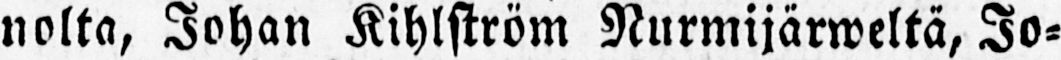nolta, Johan Kihlström Nurmijärweltä, Jo-
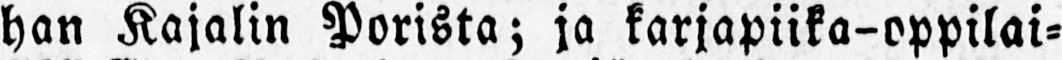han Kajalin Porista; ja karjapiika-oppilai-
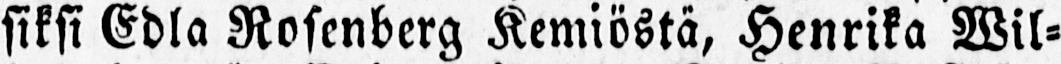siksi Edla Rosenberg Kemiöstä, Henrika Wil-
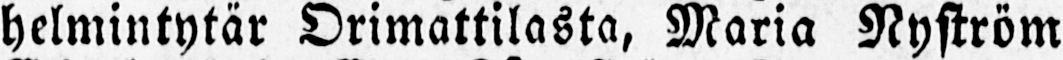helmintytär Orimattilasta, Maria Nyström
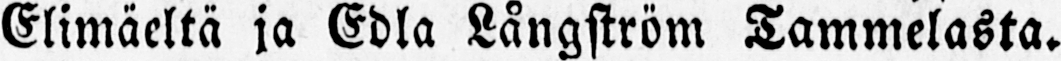Elimäeltä ja Edla Langström Tammelasta.
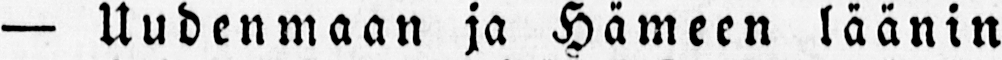— Uudenmaan ja Hämeen läänin
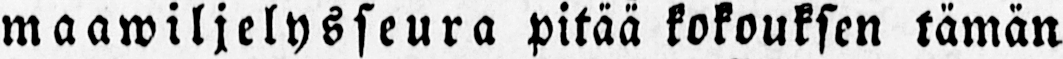maawiljelysseura pitää kokouksen tämän
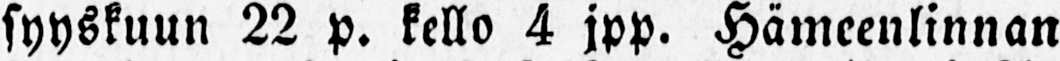syyskuun 22 p. kello 4 jpp. Hämeenlinnan
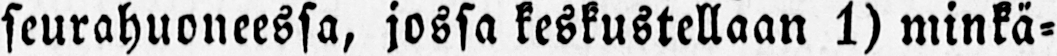seurahuoneessa, jossa keskustellaan 1) minkä-
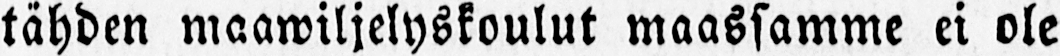tähden maawiljelyskoulut maassamme ei ole
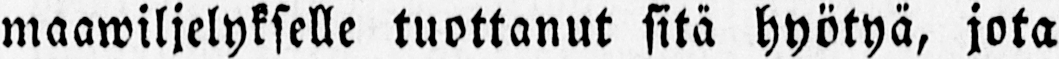maawiljelykselle tuottanut sitä hyötyä, jota
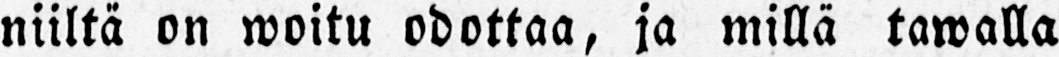niiltä on woitu odottaa, ja millä tawalla
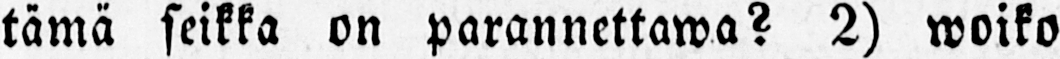tämä seikka on parannettawa? 2) woiko
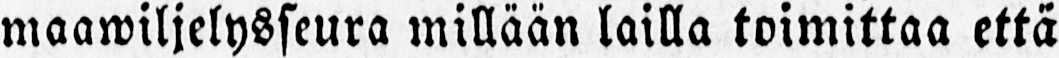maawiljelysseura millään lailla toimittaa että
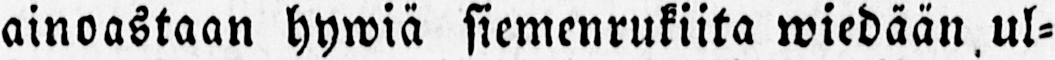ainoastaan hywiä siemenrukiita wiedään ul-
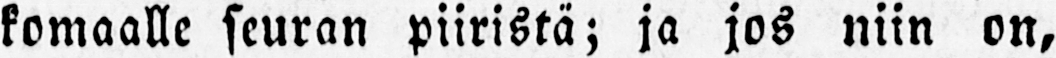komaalle seuran piiristä; ja jos niin on,
